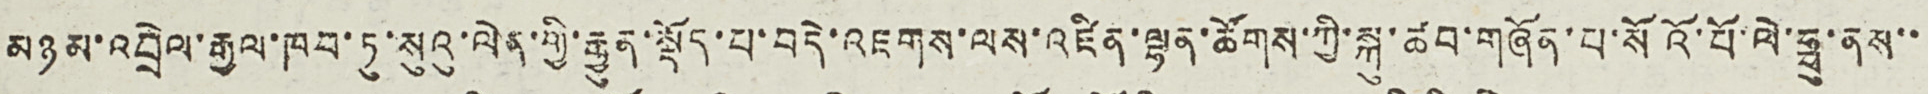མཉམ་འབྲེལ་རྒྱལ་ཁབ་ཏུ་སུའུ་ལེན་གྱི་རྒྱུན་སྡོད་པ་བདེ་འཇགས་ལས་འཛིན་ལྷན་ཚོགས་ཀྱི་སྐུ་ཚབ་གཞོན་པ་སོའོ་པོ་ལེ་ཧྥུ་ནས་་
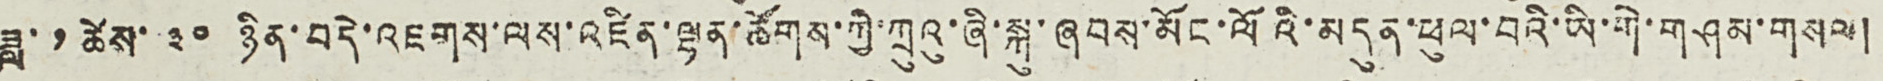ཟླ་ ༡ ཚེས་ ༣༠ ཉིན་བདེ་འཇགས་ལས་འཛིན་ལྷན་ཚོགས་ཀྱི་ཀྲུའུ་ཞི་སྐུ་ཞབས་མོང་ལོའི་མདུན་ཕུལ་བའི་ཡི་གེ་གཤམ་གསལ།
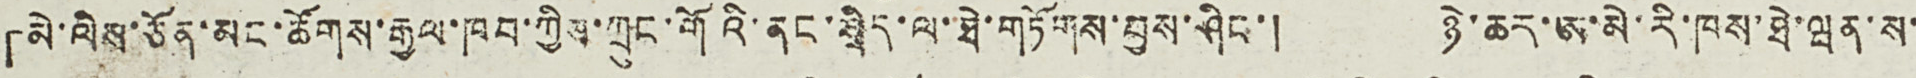「མེ་ལིས་ཅོན་མང་ཚོགས་རྒྱལ་ཁབ་ཀྱིས་ཀྲུང་གོའི་ནང་སྲིད་ལ་ཐེ་གཏོགས་བྱས་ཤིང་། ཉེ་ཆར་ཨ་མེ་རི་ཁས་ཐེ་ཝན་ས་
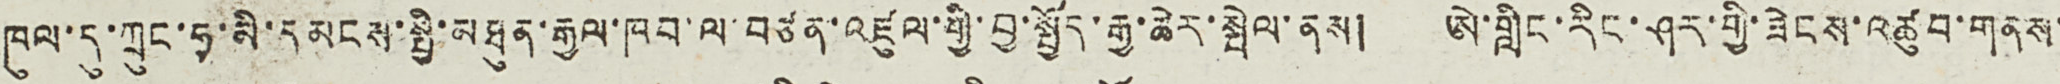ཁུལ་དུ་ཀྲུང་ཧྭ་མི་དམངས་སྤྱི་མཐུན་རྒྱལ་ཁབ་ལ་བཙན་འཛུལ་གྱི་བྱ་སྤྱོད་རྒྱ་ཆེར་སྤེལ་ནས། ཨེ་གླིང་རིང་ཤར་གྱི་ཟེངས་འཚུབ་གནས་
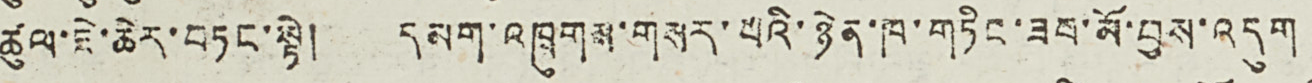ཚུལ་ཇེ་ཆེར་བཏང་སྟེ། དམག་འཁྲུགས་གསར་པའི་ཉེན་ཁ་གཏིང་ཟས་མོ་བྱས་འདུག
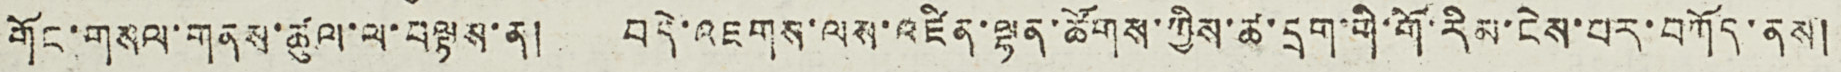གོང་གསལ་གནས་ཚུལ་ལ་བལྟས་ན། བདེ་འཇགས་ལས་འཛིན་ལྷན་ཚོགས་ཀྱིས་ཚ་དྲག་གི་གོ་རིམ་ངེས་པར་བཀོད་ནས།
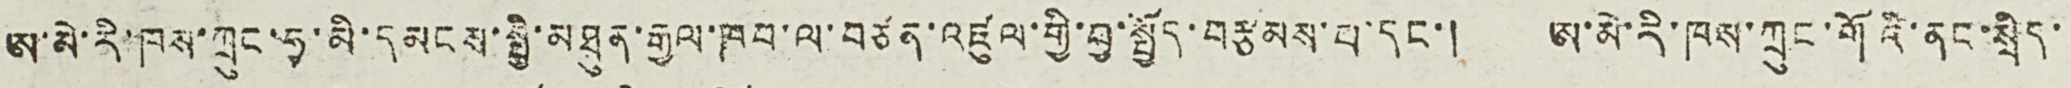ཨ་མེ་རི་ཁས་ཀྲུང་ཧྭ་མི་དམངས་སྤྱི་མཐུན་རྒྱལ་ཁབ་ལ་བཙན་འཛུལ་གྱི་བྱ་སྤྱོད་བརྩམས་པ་དང་། ཨ་མེ་རི་ཁས་ཀྲུང་གོའི་ནང་སྲིད་
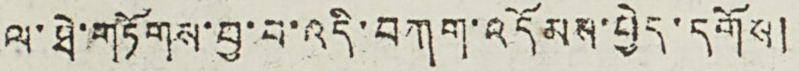ལ་ཐེ་གཏོགས་བྱ་བ་འདི་བཀག་འདོམས་བྱེད་དགོས།
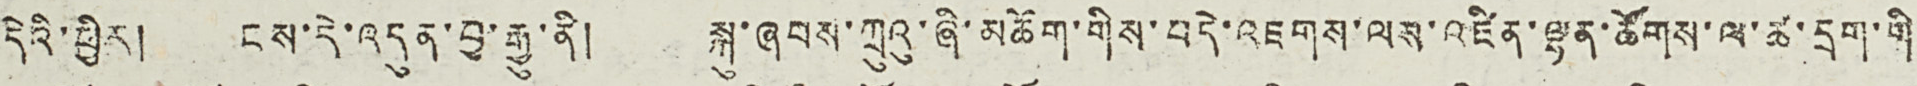དེའི་ཕྱིར། ངས་དེ་འདུན་བྱ་རྒྱུ་ནི། སྐུ་ཞབས་ཀྲུའུ་ཞི་མཆོག་གིས་བདེ་འཇགས་ལས་འཛིན་ལྷན་ཚོགས་ལ་ཚ་དྲག་གི
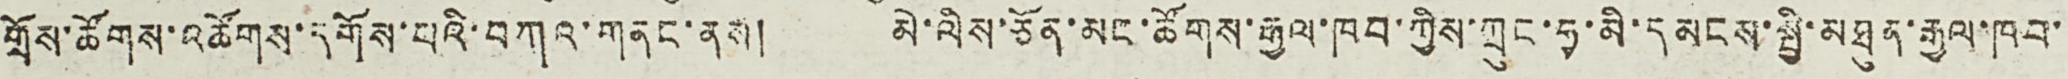གྲོས་ཚོགས་འཚོགས་དགོས་པའི་བཀའ་གནང་ནས། མེ་ལིས་ཅོན་མང་ཚོགས་རྒྱལ་ཁབ་ཀྱིས་ཀྲུང་ཧྭ་མི་དམངས་སྤྱི་མཐུན་རྒྱལ་ཁབ་
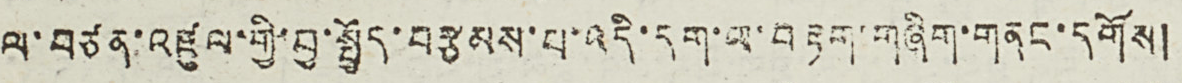ལ་བཙན་འཛུལ་གྱི་བྱ་སྤྱོད་བརྩམས་པ་འདི་དག་ཡ་བརྟག་གཞིག་གནང་དགོས།
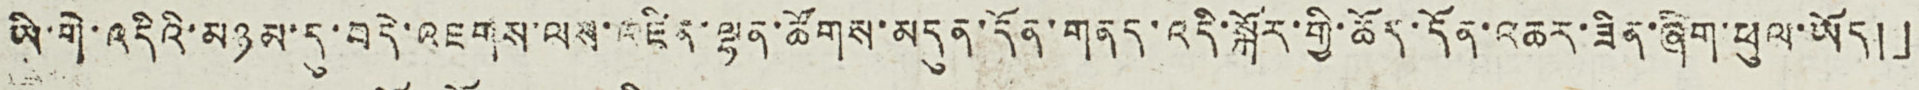ཡི་གེ་འདིའི་མཉམ་དུ་བདེ་འཇགས་ལས་འཛིན་ལྷན་ཚོགས་མདུན་དོན་གནད་འདི་སྐོར་གྱི་ཆོད་དོན་འཆར་ཟིན་ཞིག་ཕུལ་ཡོད།」
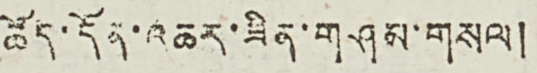ཆོད་དོན་འཆར་ཟིན་གཤམ་གསལ།
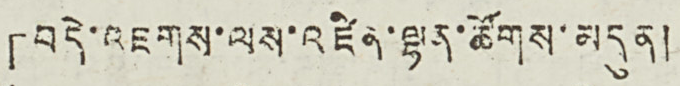「བདེ་འཇགས་ལས་འཛིན་ལྷན་ཚོགས་མདུན།
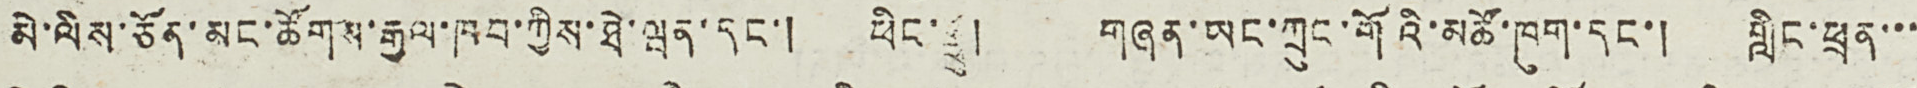མེ་ལིས་ཅོན་མང་ཚོགས་རྒྱལ་ཁབ་ཀྱིས་ཐེ་ཝན་དང་། ཕིང་ཧྥུ། གཞན་ཡང་ཀྲུང་གོའི་མཚོ་ཁུག་དང་། གླིང་ཕྲན་་་
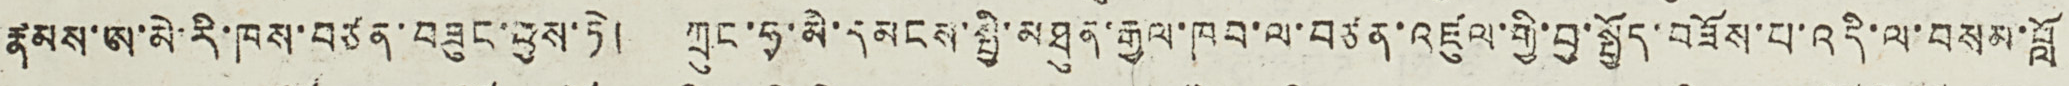རྣམས་ཨ་མེ་རི་ཁས་བཙན་བཟུང་བྱས་ཏེ། ཀྲུང་ཧྭ་མི་དམངས་སྤྱི་མཐུན་རྒྱལ་ཁབ་ལ་བཙན་འཛུལ་གྱི་བྱ་སྤྱོད་བཟོས་པ་འདི་ལ་བསམ་བློ
